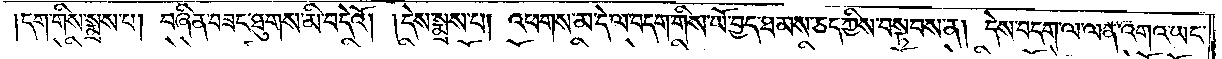།དག་གིས་སྨྲས་པ། བཞིན་བཟང་ཐུགས་མི་བདེའོ། །དེས་སྨྲས་པ། འཕགས་མ་དེ་ལ་བདག་གིས་ཡོ་བྱད་ཐམས་ཅད་ཀྱིས་བསྟབས་ན། དེས་བདག་ལ་ལན་འགའ་ཡང་
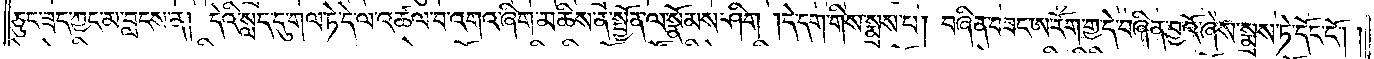ཅུང་ཟད་ཀྱང་མ་བླངས་ནས། དེའི་སླད་དུ་གལ་ཏེ་དེ་ལ་འཚལ་བ་འགའ་ཞིག་མཆིས་ན་སྤྱོན་ལ་སྙོམས་ཤིག །དེ་དག་གིས་སྨྲས་པ། བཞིན་བཟང་ཨ་རོག་གྱ་དེ་བཞིན་བྱའོ་ཞེས་སྨྲས་ཏེ་དོང་ངོ༌། །
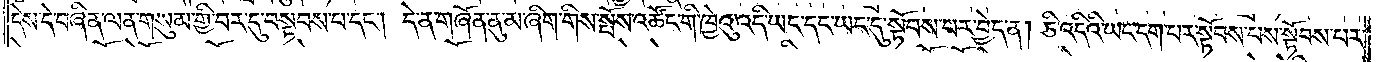དེས་དེ་བཞིན་ལན་གསུམ་གྱི་བར་དུ་བསྟབས་པ་དང༌། དེ་ན་གཞོན་ནུ་མ་ཞིག་གིས་སྤོས་འཚོང་གི་ཁྱེའུ་འདི་ཡང་དང་ཡང་དུ་སྟོབས་པར་བྱེད་ན། ཅི་འདིའི་ཡང་དག་པར་སྟོབས་པས་སྟོབས་པར་
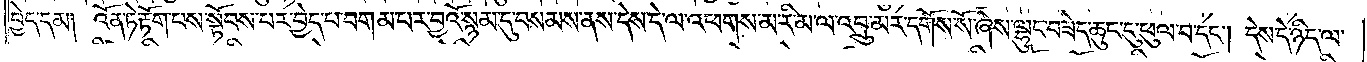བྱེད་དམ། འོན་ཏེ་རྟོག་པས་སྟོབས་པར་བྱེད་པ་བགམ་པར་བྱའོ་སྙམ་དུ་བསམས་ནས་དེས་དེ་ལ་འཕགས་མ་རི་མ་ལ་འབྲུ་མར་དགོས་སོ་ཞེས་ལྷུང་བཟེད་ཆུང་ངུ་ཕུལ་བ་དང༌། དེས་དེ་ཉིད་ལ་
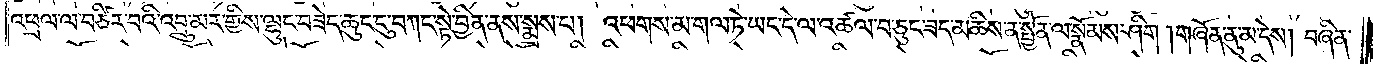འཕྲལ་ལ་བཙིར་བའི་འབྲུ་མར་གྱིས་ལྷུང་བཟེད་ཆུང་ངུ་བཀང་སྟེ་བྱིན་ནས་སྨྲས་པ། འཕགས་མ་གལ་ཏེ་ཡང་དེ་ལ་འཚལ་བ་ཅུང་ཟད་མཆིས་ན་སྤྱོན་ལ་སྣོམས་ཤིག །གཞོན་ནུ་མ་དེས། བཞིན་
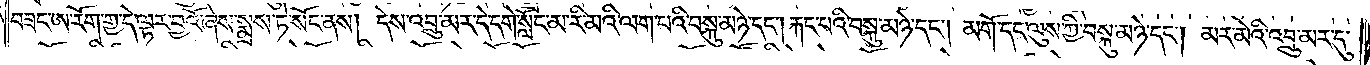བཟང་ཨ་རོག་གྱ་དེ་ལྟར་བྱའོ་ཞེས་སྨྲས་ཏེ་སོང་ནས། དེས་འབྲུ་མར་དེ་དགེ་སློང་མ་རི་མའི་ལག་པའི་བསྐུ་མཉེ་དང༌། རྐང་པའི་བསྐུ་མཉེ་དང༌། མགོ་དང་ལུས་ཀྱི་བསྐུ་མཉེ་དང༌། མར་མེའི་འབྲུ་མར་དུ་
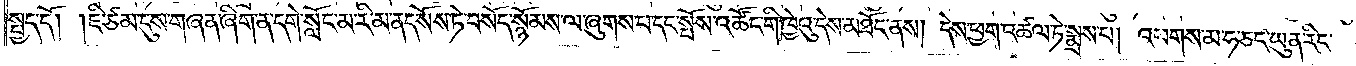སྤྱད་དོ། །ཇི་ཙམ་དུས་གཞན་ཞིག་ན་དགེ་སློང་མ་རི་མ་ནད་སོས་ཏེ་བསོད་སྙོམས་ལ་ཞུགས་པ་དང་སྤོས་འཚོང་གི་ཁྱེའུ་དེས་མཐོང་ནས། དེས་ཕྱག་འཚལ་ཏེ་སྨྲས་པ། འཕགས་མ་ཧ་ཅང་ཡུན་རིང་
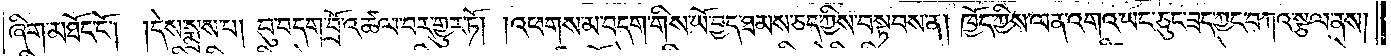ཞིག་མཐོང་ངོ༌། །དེས་སྨྲས་པ། བུ་བདག་བྲོ་འཚལ་བར་གྱུར་ཏོ། །འཕགས་མ་བདག་གིས་ཡོ་བྱད་ཐམས་ཅད་ཀྱིས་བསྟབས་ན། ཁྱོད་ཀྱིས་ལན་འགའ་ཡང་ཅུང་ཟད་ཀྱང་བཀའ་སྩལ་ནས།
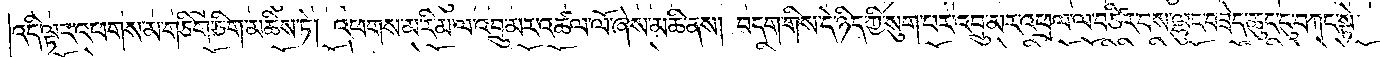འདི་ལྟར་འཕགས་མ་གཅིག་ཅིག་མཆིས་ཏེ། འཕགས་མ་རི་མ་ལ་འབྲུ་མར་འཚལ་ལོ་ཞེས་མཆི་ནས། བདག་གིས་དེ་ཉིད་ཀྱི་སུག་པར་འབྲུ་མར་འཕྲལ་ལ་བཙིར་བས་ལྷུང་བཟེད་ཆུང་ངུ་བཀང་སྟེ་
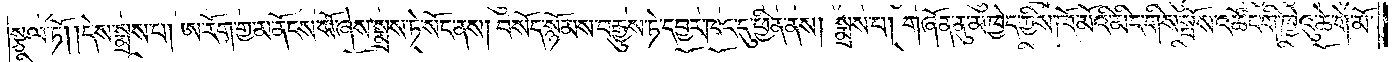སྩལ་ཏོ། །དེས་སྨྲས་པ། ཨ་རོག་གྱ་མ་ནོངས་སོ་ཞེས་སྨྲས་ཏེ་སོང་ནས། བསོད་སྙོམས་བརྒྱུས་ཏེ་དབྱར་ཁང་དུ་ཕྱིན་ནས། སྨྲས་པ། གཞོན་ནུ་མ་ཁྱེད་ཀྱིས་ཁོ་མོའི་མིང་གིས་སྤོས་འཚོང་གི་ཁྱེའུ་ཆེ་གེ་མོ་
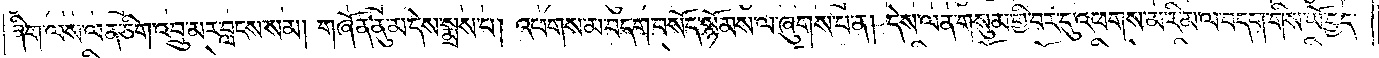ཞིག་ལས་ལན་ཅིག་འབྲུ་མར་བླངས་སམ། གཞོན་ནུ་མ་དེས་སྨྲས་པ། འཕགས་མ་བདག་བསོད་སྙོམས་ལ་ཞུགས་པ་ན། དེས་ལན་གསུམ་གྱི་བར་དུ་འཕགས་མ་རི་མ་ལ་བདག་གིས་ཡོ་བྱད་
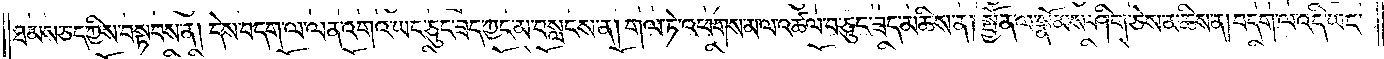ཐམས་ཅད་ཀྱིས་བསྟབས་ན། དེས་བདག་ལ་ལན་འགའ་ཡང་ཅུང་ཟད་ཀྱང་མ་བསླངས་ན། གལ་ཏེ་འཕགས་མ་ལ་འཚལ་བ་ཅུང་ཟད་མཆིས་ན། སྤྱོན་ལ་སྣོམས་ཤིག་ཅེས་མཆིས་ན། བདག་ལ་འདི་ཡང་
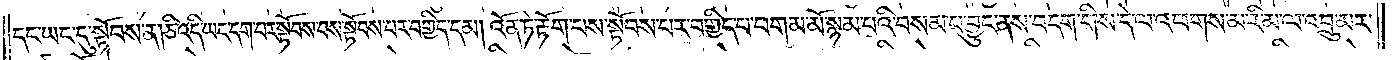དང་ཡང་དུ་སྟོབས་ན། ཅི་འདི་ཡང་དག་པར་སྟོབས་པས་སྟོབས་པར་བགྱིད་དམ། འོན་ཏེ་རྟོག་པས་སྟོབས་པར་བགྱིད་པ་བག་མ་མོ་སྙམ་པའི་བསམ་པ་བྱུང་ནས་བདག་གིས་དེ་ལ་འཕགས་མ་རི་མ་ལ་འབྲུ་མར་
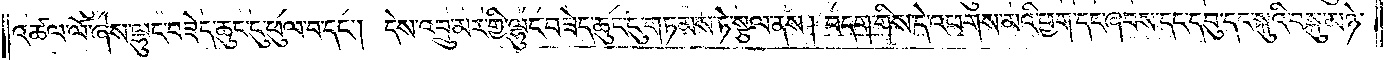འཚལ་ལོ་ཞེས་ལྷུང་བཟེད་ཆུང་ངུ་ཕུལ་བ་དང༌། དེས་འབྲུ་མར་གྱི་ལྷུང་བཟེད་ཆུང་ངུ་གཏམས་ཏེ་སྩལ་ནས། བདག་གིས་དེ་འཕགས་མའི་ཕྱག་དང་ཞབས་དང་དབུ་དང་སྐུའི་བསྐུ་མཉེ་
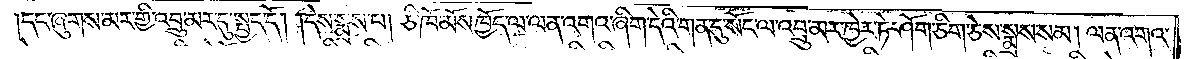དང་ཞུགས་མར་གྱི་འབྲུ་མར་དུ་སྤྱད་དོ། །དེས་སྨྲས་པ། ཅི་ཁོ་མོས་ཁྱོད་ལ་ལན་འགའ་ཞིག་དེའི་གན་དུ་སོང་ལ་འབྲུ་མར་ཁྱེར་ཏེ་ཤོག་ཅིག་ཅེས་སྨྲས་སམ། ལན་འགའ་
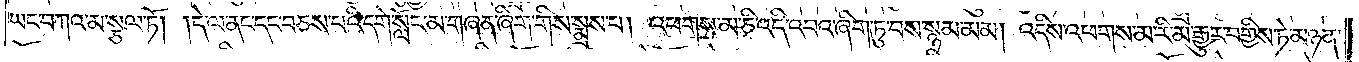ཡང་བཀའ་མ་སྩལ་ཏོ། །དེ་ལ་ནང་དང་བཅས་པའི་དགེ་སློང་མ་གཞན་ཞིག་གིས་སྨྲས་པ། འཕགས་མ་ཅི་འདི་འབའ་ཞིག་ཏུ་བས་སྙམ་མམ། འདིས་འཕགས་མ་རི་མ་རྒྱུར་བགྱིས་ཏེ་མཉན་
